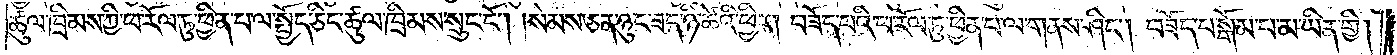ཚུལ་ཁྲིམས་ཀྱི་ཕ་རོལ་ཏུ་ཕྱིན་པ་ལ་སྤྱོད་ཅིང་ཚུལ་ཁྲིམས་སྲུང་ངོ༌། །སེམས་ཅན་ཉུང་ཟད་ཉི་ཚེའི་ཕྱིར། བཟོད་པའི་ཕ་རོལ་ཏུ་ཕྱིན་པ་ལ་གནས་ཤིང༌། བཟོད་པ་སྒོམ་པ་མ་ཡིན་གྱི།
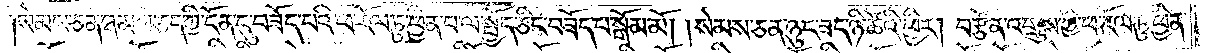སེམས་ཅན་ཐམས་ཅད་ཀྱི་དོན་དུ་བཟོད་པའི་ཕ་རོལ་ཏུ་ཕྱིན་པ་ལ་སྤྱོད་ཅིང་བཟོད་པ་སྒོམ་མོ། །སེམས་ཅན་ཉུང་ཟད་ཉི་ཚེའི་ཕྱིར། བརྩོན་འགྲུས་ཀྱི་ཕ་རོལ་ཏུ་ཕྱིན་
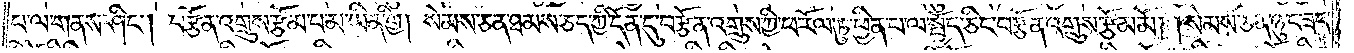པ་ལ་གནས་ཤིང༌། བརྩོན་འགྲུས་རྩོམ་པ་མ་ཡིན་གྱི། སེམས་ཅན་ཐམས་ཅད་ཀྱི་དོན་དུ་བརྩོན་འགྲུས་ཀྱི་ཕ་རོལ་ཏུ་ཕྱིན་པ་ལ་སྤྱོད་ཅིང་བརྩོན་འགྲུས་རྩོམ་མོ། །སེམས་ཅན་ཉུང་ཟད་
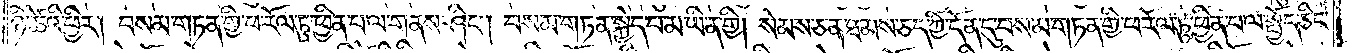ཉི་ཚེའི་ཕྱིར། བསམ་གཏན་གྱི་ཕ་རོལ་ཏུ་ཕྱིན་པ་ལ་གནས་ཤིང༌། བསམ་གཏན་སྐྱེད་པ་མ་ཡིན་གྱི། སེམས་ཅན་ཐམས་ཅད་ཀྱི་དོན་དུ་བསམ་གཏན་གྱི་ཕ་རོལ་ཏུ་ཕྱིན་པ་ལ་སྤྱོད་ཅིང་
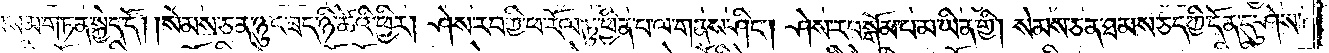བསམ་གཏན་སྐྱེད་དོ། །སེམས་ཅན་ཉུང་ཟད་ཉི་ཚེའི་ཕྱིར། ཤེས་རབ་ཀྱི་ཕ་རོལ་ཏུ་ཕྱིན་པ་ལ་གནས་ཤིང༌། ཤེས་རབ་སྒོམ་པ་མ་ཡིན་གྱི། སེམས་ཅན་ཐམས་ཅད་ཀྱི་དོན་དུ་ཤེས་
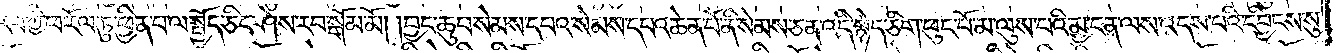རབ་ཀྱི་ཕ་རོལ་ཏུ་ཕྱིན་པ་ལ་སྤྱོད་ཅིང་ཤེས་རབ་སྒོམ་མོ། །བྱང་ཆུབ་སེམས་དཔའ་སེམས་དཔའ་ཆེན་པོ་ནི་སེམས་ཅན་འདི་སྙེད་ཅིག་ཕུང་པོ་མ་ལུས་པའི་མྱ་ངན་ལས་འདས་པའི་དབྱིངས་སུ་
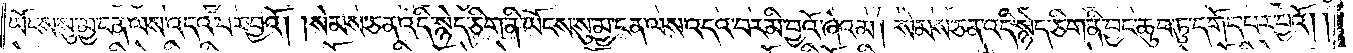ཡོངས་སུ་མྱ་ངན་ལས་འདའ་བར་བྱའོ། །སེམས་ཅན་འདི་སྙེད་ཅིག་ནི་ཡོངས་སུ་མྱ་ངན་ལས་འདའ་བར་མི་བྱའོ་ཞེའམ། སེམས་ཅན་འདི་སྙེད་ཅིག་ནི་བྱང་ཆུབ་ཏུ་དགོད་པར་བྱའོ། །
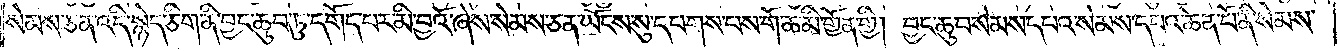སེམས་ཅན་འདི་སྙེད་ཅིག་ནི་བྱང་ཆུབ་ཏུ་དགོད་པར་མི་བྱའོ་ཞེས་སེམས་ཅན་ཡོངས་སུ་དཔགས་པས་གོ་ཆ་མི་གྱོན་གྱི། བྱང་ཆུབ་སེམས་དཔའ་སེམས་དཔའ་ཆེན་པོ་ནི་སེམས་
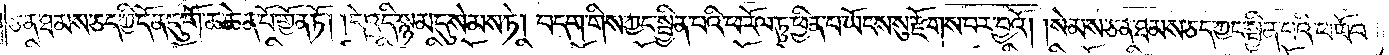ཅན་ཐམས་ཅད་ཀྱི་དོན་དུ་གོ་ཆ་ཆེན་པོ་གྱོན་ཏོ། །དེ་འདི་སྙམ་དུ་སེམས་ཏེ། བདག་གིས་ཀྱང་སྦྱིན་པའི་ཕ་རོལ་ཏུ་ཕྱིན་པ་ཡོངས་སུ་རྫོགས་པར་བྱའོ། །སེམས་ཅན་ཐམས་ཅད་ཀྱང་སྦྱིན་པའི་ཕ་རོལ་
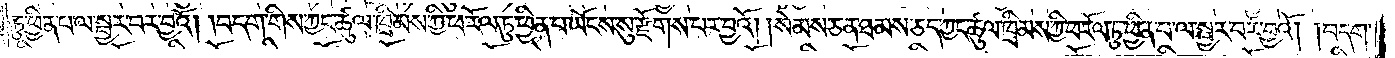ཏུ་ཕྱིན་པ་ལ་སྦྱར་བར་བྱའོ། །བདག་གིས་ཀྱང་ཚུལ་ཁྲིམས་ཀྱི་ཕ་རོལ་ཏུ་ཕྱིན་པ་ཡོངས་སུ་རྫོགས་པར་བྱའོ། །སེམས་ཅན་ཐམས་ཅད་ཀྱང་ཚུལ་ཁྲིམས་ཀྱི་ཕ་རོལ་ཏུ་ཕྱིན་པ་ལ་སྦྱར་བར་བྱའོ། །བདག་
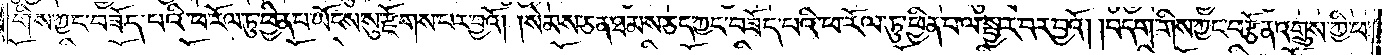གིས་ཀྱང་བཟོད་པའི་ཕ་རོལ་ཏུ་ཕྱིན་པ་ལ་ཡོངས་སུ་རྫོགས་པར་བྱའོ། །སེམས་ཅན་ཐམས་ཅད་ཀྱང་བཟོད་པའི་ཕ་རོལ་ཏུ་ཕྱིན་པ་ལ་སྦྱར་བར་བྱའོ། །བདག་གིས་ཀྱང་བརྩོན་འགྲུས་ཀྱི་ཕ་
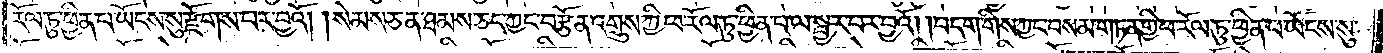རོལ་ཏུ་ཕྱིན་པ་ཡོངས་སུ་རྫོགས་པར་བྱའོ། །སེམས་ཅན་ཐམས་ཅད་ཀྱང་བརྩོན་འགྲུས་ཀྱི་ཕ་རོལ་ཏུ་ཕྱིན་པ་ལ་སྦྱར་བར་བྱའོ། །བདག་གིས་ཀྱང་བསམ་གཏན་གྱི་ཕ་རོལ་ཏུ་ཕྱིན་པ་ཡོངས་སུ་
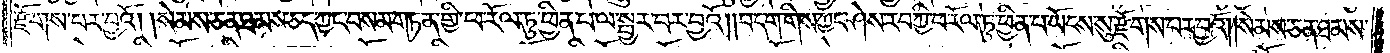རྫོགས་པར་བྱའོ། །སེམས་ཅན་ཐམས་ཅད་ཀྱང་བསམ་གཏན་གྱི་ཕ་རོལ་ཏུ་ཕྱིན་པ་ལ་སྦྱར་བར་བྱའོ། །བདག་གིས་ཀྱང་ཤེས་རབ་ཀྱི་ཕ་རོལ་ཏུ་ཕྱིན་པ་ཡོངས་སུ་རྫོགས་པར་བྱའོ། །སེམས་ཅན་ཐམས་
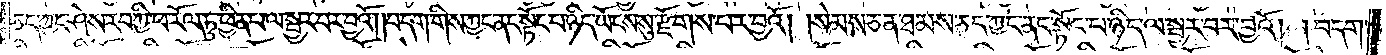ཅད་ཀྱང་ཤེས་རབ་ཀྱི་ཕ་རོལ་ཏུ་ཕྱིན་པ་ལ་སྦྱར་བར་བྱའོ། །བདག་གིས་ཀྱང་ནང་སྟོང་པ་ཉིད་ཡོངས་སུ་རྫོགས་པར་བྱའོ། །སེམས་ཅན་ཐམས་ཅད་ཀྱང་ནང་སྟོང་པ་ཉིད་ལ་སྦྱར་བར་བྱའོ། །བདག་
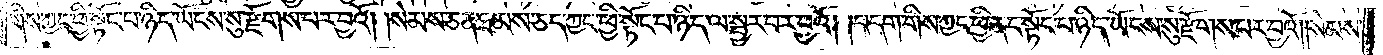གིས་ཀྱང་ཕྱི་སྟོང་པ་ཉིད་ཡོངས་སུ་རྫོགས་པར་བྱའོ། །སེམས་ཅན་ཐམས་ཅད་ཀྱང་ཕྱི་སྟོང་པ་ཉིད་ལ་སྦྱར་བར་བྱའོ། །བདག་གིས་ཀྱང་ཕྱི་ནང་སྟོང་པ་ཉིད་ཡོངས་སུ་རྫོགས་པར་བྱའོ། །སེམས་
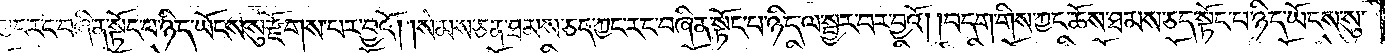ཀྱང་རང་བཞིན་སྟོང་པ་ཉིད་ཡོངས་སུ་རྫོགས་པར་བྱའོ། །སེམས་ཅན་ཐམས་ཅད་ཀྱང་རང་བཞིན་སྟོང་པ་ཉིད་ལ་སྦྱར་བར་བྱའོ། །བདག་གིས་ཀྱང་ཆོས་ཐམས་ཅད་སྟོང་པ་ཉིད་ཡོངས་སུ་
